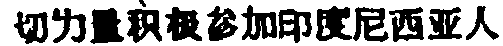切力量积极参加印度尼西亚人
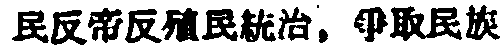民反帝反殖民統治，爭取民族
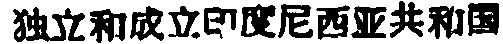独立和成立印度尼西亚共和国
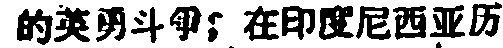的英勇斗爭；在印度尼西亚历
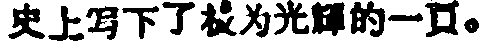史上写下了极为光輝的一頁。
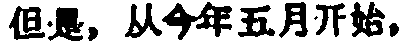但是，从今年五月开始，
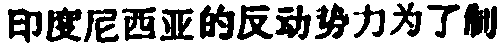印度尼西亞的反动势力为了制
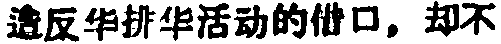造反华排华活动的借口，却不
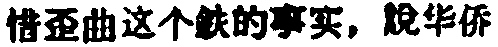惜歪曲这个鉄的事实，說华侨
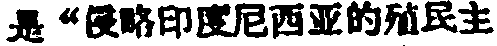是“侵略印度尼西亚的殖民主
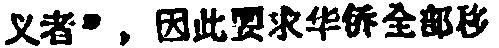义者”，因此要求华侨全部移
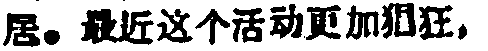居。最近这个活动更加猖狂，
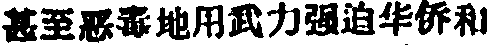甚至恶毒地用武力强迫华侨和
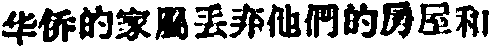华侨的家屬丢弃他們的房屋和
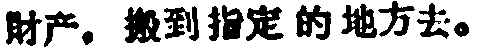財产，搬到指定的地方去。
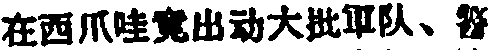在西爪哇竟出动大批軍队、警
